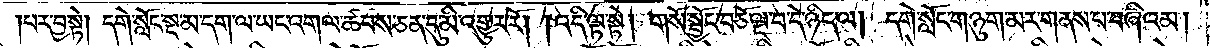།པར་བྱ་སྟེ། དགེ་སློང་སྔ་མ་དག་ལ་ཡང་འགལ་ཚབས་ཅན་དུ་མི་འགྱུར་རོ། །འདི་ལྟ་སྟེ། གསོ་སྦྱོང་བཅོ་ལྔ་པ་དེ་ཉིད་ལ། དགེ་སློང་གཉུག་མར་གནས་པ་བཞིའམ།
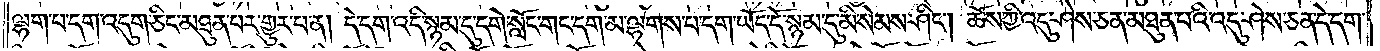ལྷག་པ་དག་འདུག་ཅིང་མཐུན་པར་གྱུར་པ་ན། དེ་དག་འདི་སྙམ་དུ་དགེ་སློང་གང་དག་མ་ལྷགས་བ་དག་ཡོད་དོ་སྙམ་དུ་མི་སེམས་ཤིང༌། ཆོས་ཀྱི་འདུ་ཤེས་ཅན་མཐུན་པའི་འདུ་ཤེས་ཅན་དེ་དག་
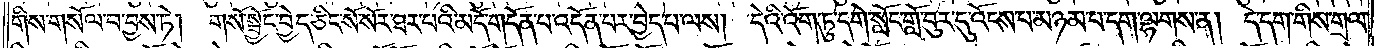གིས་གསོལ་བ་བྱས་ཏེ། གསོ་སྦྱོང་བྱེད་ཅིང་སོ་སོར་ཐར་པའི་མདོ་གདོན་པ་འདོན་པར་བྱེད་པ་ལས། དེའི་འོག་ཏུ་དགེ་སློང་གློ་བུར་དུ་འོངས་པ་མཉམ་པ་དག་ལྷགས་ན། དེ་དག་གིས་གྲལ་
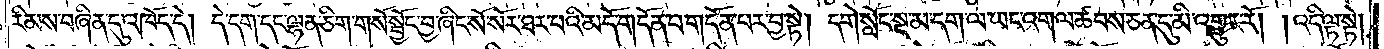རིམས་བཞིན་དུ་འཁོད་དེ། དེ་དག་དང་ལྷན་ཅིག་གསོ་སྦྱོང་བྱ་ཞིང་སོ་སོར་ཐར་པའི་མདོ་གདོན་པ་གདོན་པར་བྱ་སྟེ། དགེ་སློང་སྔ་མ་དག་ལ་ཡང་འགལ་ཚབས་ཅན་དུ་མི་འགྱུར་རོ། །འདི་ལྟ་སྟེ།
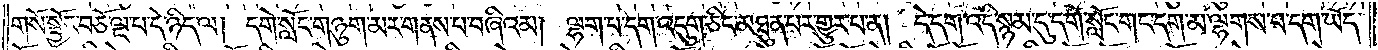གསོ་སྦྱོང་བཅོ་ལྔ་པ་དེ་ཉིད་ལ། དགེ་སློང་གཉུག་མར་གནས་པ་བཞིའམ། ལྷག་པ་དག་འདུག་ཅིང་མཐུན་པར་གྱུར་པ་ན། དེ་དག་འདི་སྙམ་དུ་དགེ་སློང་གང་དག་མ་ལྷགས་པ་དག་ཡོད་
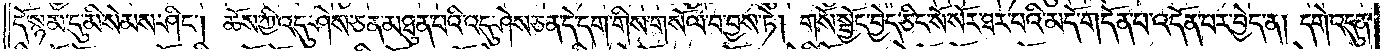དོ་སྙམ་དུ་མི་སེམས་ཤིང༌། ཆོས་ཀྱི་འདུ་ཤེས་ཅན་མཐུན་པའི་འདུ་ཤེས་ཅན་དེ་དག་གིས་གསོལ་བ་བྱས་ཏེ། གསོ་སྦྱོང་བྱེད་ཅིང་སོ་སོར་ཐར་བའི་མདོ་གདོན་པ་འདོན་པར་བྱེད་ན། དགེ་འདུན་
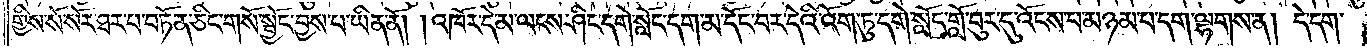གྱིས་སོ་སོར་ཐར་པ་བཏོན་ཅིང་གསོ་སྦྱོང་བྱས་པ་ཡིན་ནོ། །འཁོར་དེ་མ་ལངས་ཤིང་དགེ་སློང་དག་མ་དོང་བར་དེའི་འོག་ཏུ་དགེ་སློང་གློ་བུར་དུ་འོངས་པ་མཉམ་པ་དག་ལྷགས་ན། དེ་དག་
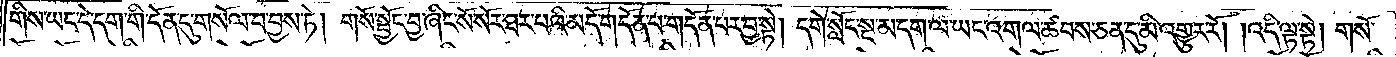གིས་ཡང་དེ་དག་གི་དོན་དུ་གསོལ་བ་བྱས་ཏེ། གསོ་སྦྱོང་བྱ་ཞིང་སོ་སོར་ཐར་པའི་མདོ་གདོན་པ་གདོན་པར་བྱ་སྟེ། དགེ་སློང་སྔ་མ་དག་ལ་ཡང་འགལ་ཚབས་ཅན་དུ་མི་འགྱུར་རོ། །འདི་ལྟ་སྟེ། གསོ་
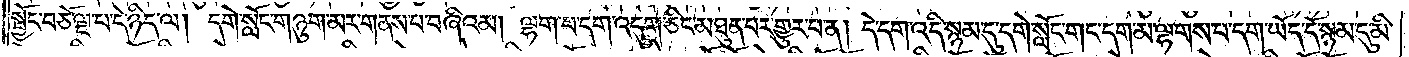སྦྱོང་བཅོ་ལྔ་པ་དེ་ཉིད་ལ། དགེ་སློང་གཉུག་མར་གནས་པ་བཞིའམ། ལྷག་པ་དག་འདུག་ཅིང་མཐུན་པར་གྱུར་པ་ན། དེ་དག་འདི་སྙམ་དུ་དགེ་སློང་གང་དག་མ་ལྷགས་པ་དག་ཡོད་དོ་སྙམ་དུ་མི་
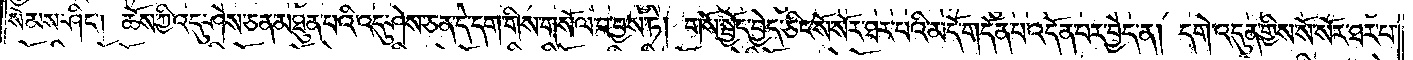སེམས་ཤིང༌། ཆོས་ཀྱི་འདུ་ཤེས་ཅན་མཐུན་པའི་འདུ་ཤེས་ཅན་དེ་དག་གིས་གསོལ་བ་བྱས་ཏེ། གསོ་སྦྱོང་བྱེད་ཅིང་སོ་སོར་ཐར་པའི་མདོ་གདོན་པ་འདོན་པར་བྱེད་ན། དགེ་འདུན་གྱིས་སོ་སོར་ཐར་པ་
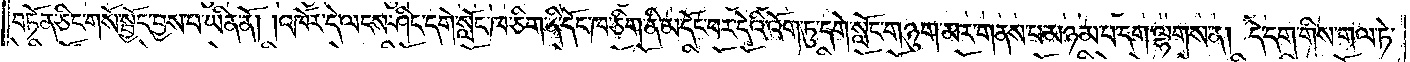བཏོན་ཅིང་གསོ་སྦྱོང་བྱས་པ་ཡིན་ནོ། །འཁོར་དེ་ལངས་ཤིང་དགེ་སློང་ཁ་ཅིག་ནི་དོང་ཁ་ཅིག་ནི་མདོང་བར་དེའི་འོག་ཏུ་དགེ་སློང་གཉུག་མར་གནས་པ་མཉམ་པ་དག་ལྷགས་ན། དེ་དག་གིས་གལ་ཏེ་
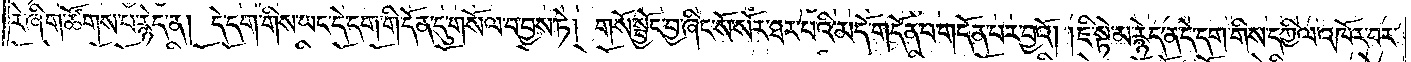རེ་ཞིག་ཚོགས་པ་རྙེད་ན། དེ་དག་གིས་ཡང་དེ་དག་གི་དོན་དུ་གསོལ་བ་བྱས་ཏེ། གསོ་སྦྱོང་བྱ་ཞིང་སོ་སོར་ཐར་པའི་མདོ་གདོན་པ་གདོན་པར་བྱའོ། །ཇི་སྟེ་མ་རྙེད་ན་དེ་དག་གིས་དཀྱིལ་འཁོར་བར་
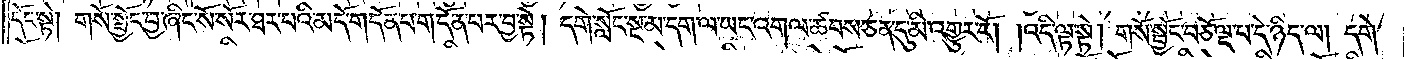དོང་སྟེ། གསོ་སྦྱོང་བྱ་ཞིང་སོ་སོར་ཐར་པའི་མདོ་གདོན་པ་གདོན་པར་བྱ་སྟེ། དགེ་སློང་སྔ་མ་དག་ལ་ཡང་འགལ་ཚབས་ཅན་དུ་མི་འགྱུར་རོ། །འདི་ལྟ་སྟེ། གསོ་སྦྱོང་བཅོ་ལྔ་པ་དེ་ཉིད་ལ། དགེ་
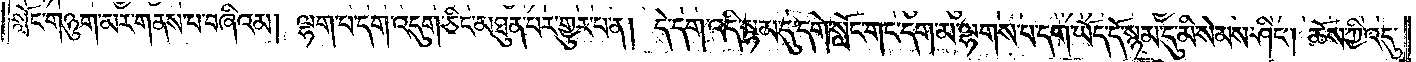སློང་གཉུག་མར་གནས་པ་བཞིའམ། ལྷག་པ་དག་འདུག་ཅིང་མཐུན་པར་གྱུར་པ་ན། དེ་དག་འདི་སྙམ་དུ་དགེ་སློང་གང་དག་མ་ལྷགས་པ་དག་ཡོད་དོ་སྙམ་དུ་མི་སེམས་ཤིང༌། ཆོས་ཀྱི་འདུ་
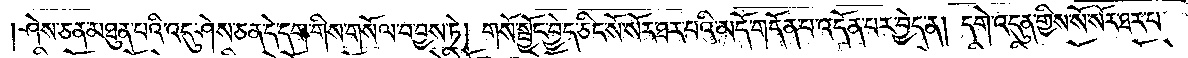ཤེས་ཅན་མཐུན་པའི་འདུ་ཤེས་ཅན་དེ་དག་གིས་གསོལ་བ་བྱས་ཏེ། གསོ་སྦྱོང་བྱེད་ཅིང་སོ་སོར་ཐར་པའི་མདོ་གདོན་པ་འདོན་པར་བྱེད་ན། དགེ་འདུན་གྱིས་སོ་སོར་ཐར་པ་
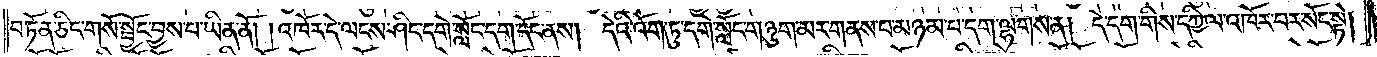བཏོན་ཅིང་གསོ་སྦྱོང་བྱས་པ་ཡིན་ནོ། །འཁོར་དེ་ལངས་ཤིང་དགེ་སློང་དག་དོང་ནས། དེའི་འོག་ཏུ་དགེ་སློང་གཉུག་མར་གནས་པ་མཉམ་པ་དག་ལྷགས་ན། དེ་དག་གིས་དཀྱིལ་འཁོར་བར་སོང་སྟེ།
